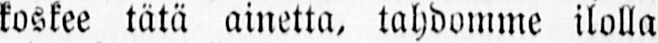koskee tätä ainetta, tahdomme ilolla
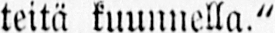teitä kuunnella."
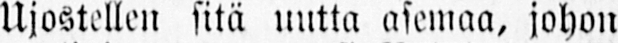Ujostellen sitä uutta asemaa, johon
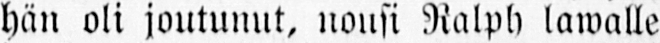hän oli joutunut, nousi Ralph lawalle
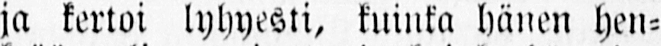ja kertoi lyhyesti, kuinka hänen hen-
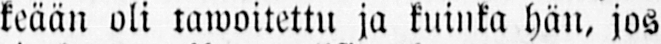keään oli tawoitettu ja kuinka hän, jos
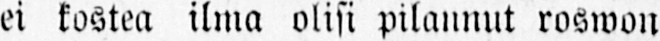ei kostea ilma olisi pilannut roswon
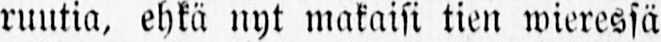ruutia, ehkä nyt makaisi tien wieressä
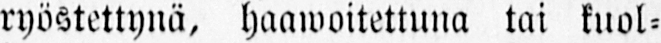ryöstettynä, haawoitettuua tai kuol-
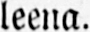leena.
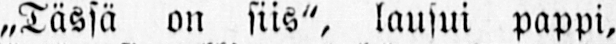„Tässä on siis", lausui pappi,
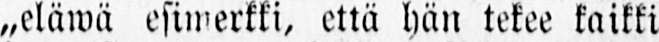„eläwä esimerkki, että hän tekee kaikki
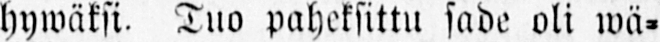hywäksi. Tuo paheksittu sade oli wä-
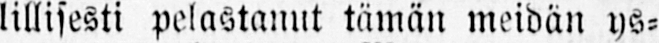lillisesti pelastanut tämän meidän ys-
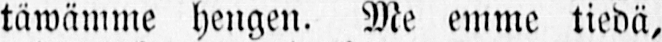täwämme hengen. Me emme tiedä,
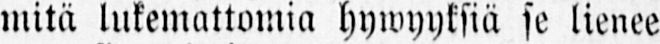mitä lukemattomia hywyyksiä se lienee
